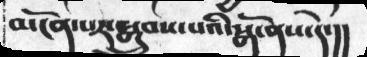མངོན་པར་སྒྲུབས་པའི་སྒོ་ནས་དེ་།།
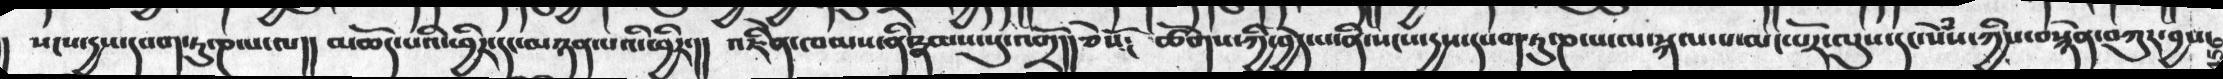།  སངས་དྱས་དཔག་ཏུ་ཎ་པ་ལ།།  མཆོད་པའི་ཕྱིར་དང་མཉན་པའི་ཕྱིར་།།  འཇིེན་ཁམས་ནི་རྣམས་སུ་འགྲོ།། ཅེསོ༴  ཚོགས་ཀྱི་བྱེད་པ་ནི་སངས་དྱས་དཔག་ཏུ་ཎ་པ་ལ་སྐལ་པ་མང་པོར་ལུས་དང་སེཾས་ཀྱིས་བསྙེན་བཀུར་བྱས་
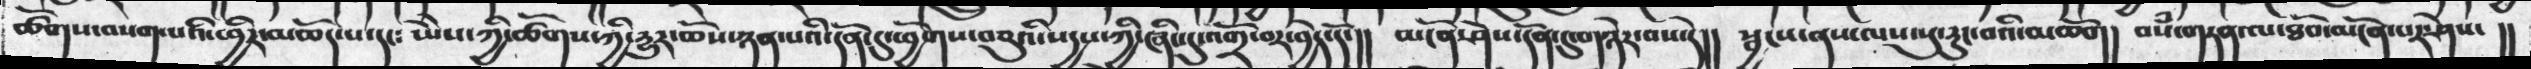ཚོགས་བསག་པའི་ཕྱིར་མཆོད་པ་དང༴ ཡཻས་ཀྱི་ཚོགས་ཀྱི་དྱུར་ཆོས་ཉན་པའི་དོན་དུ་ཕྱོགས་བཅུའི་སདྱས་ཀྱི་ཞིང་དུ་འགྲོ་བར་བྱེད་དོ་།།  མངོན་ཤེས་དོན་དུ་གཉེར་བས་དེ།།  སྦྱངས་ནས་ལས་སུ་རུང་བའི་མཆོག།  བསཾ་གཏན་ལ་ཐོབ་མངོན་པར་ཤེས་  །།
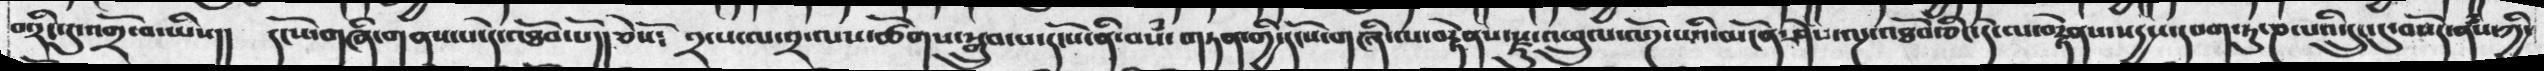བ་རིང་དུ་འགྲོ་བ་ཡིས།།   དང་པོ་གཞི་གནས་པ་དེ་འཐོབ་པོ།།ཅེསོ༴ ༢་པ་ལ་༢་ལས་ཚོགས་སྒྲུབ་པ་དངོས་པོ་ནི་བསཾ་གཏན་གྱི་གྱི་དངོས་གཞི་ལ་བརྟེནས་རྫུན་འཕྲུལ་ལོཌ་པའི་མངོན་ཤེས་ལྔ་འཐོབ་ཅིང་དེ་ལ་བརྟེནས་སདྱས་དཔག་ཏུ་ཎ་པའི་དྲུང་དུ་བསོད་ནཾས་ཀྱི་
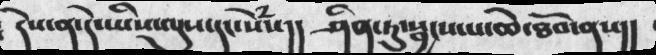དེས་ན་དེ་ཡིས་ལུས་དང་སེཾས།།  ཤིན་ཏུ་སྦྱངས་པ་ཆེ་ཐོབ་ནས།།
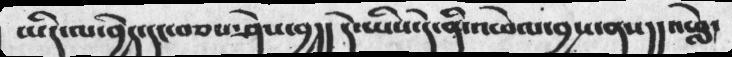ཡིད་ལ་བྱེད་དང་བཅས་ཤེས་བྱ།།  དེ་ཡིས་དེ་ནི་འཕེལ་བྱས་ནས།།  ས་བླ་
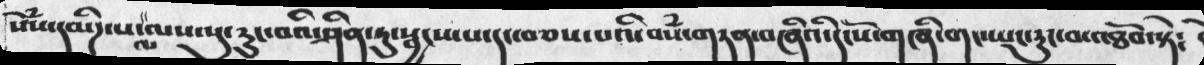སེཾས་དམིཌ་པ་ལས་སུ་རུང་བའི་ཤིན་ཏུ་སྦྱངས་པ་དང་བཅས་པའི་བསཾ་གཏན་བཞིའི་དངོས་གཞི་གང་ཡང་རུང་བ་འཐོབ་སྟེ༴
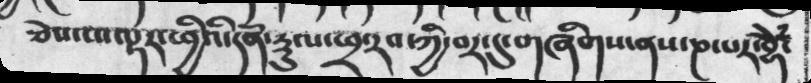ཅེས་པ་ལྟར་ཕྱིའི་དོན་རྡུལ་ཕྲ་རབ་ཀྱི་བར་དུ་གཞིགས་ནས་ཎ་པར་བྷཻཾ་
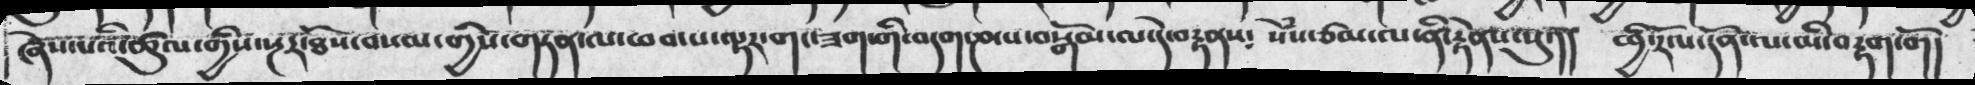ཞེས་པའི་ཚུལ་གྱིས་སྔར་ཐོས་བསམ་གྱིས་གཏན་ལ་ཕབ་པ་ལྟར་གང་ཟག་གི་བདག་ཎ་པ་བསྒོམ་ལ་དེ་བརྟནས༴  སེཾས་ཙམ་ལ་ནི་རྟེནས་སུ་།།  ཕྱི་རོལ་དོན་ལ་མི་བརྟག་གོ།
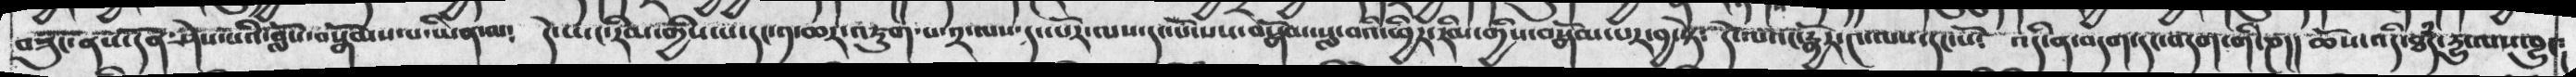བཟུང་ནས་དོན་ཤེས་པའི་བློས་བསྒོམས་པ་ཡིན་ལ༴  དེ་ཡང་རིམ་གྱིས་པ་དང་༡་ཆར་འཇུག་པ་༢་ལས་དང་པོར་ལས་དང་པོ་པས་བསྒོམ་སླ་བའི་རིམ་གྱིས་བསྒོམ་པར་བྱ་སྟེ༴  དེ་ལའང་རྣྱོར་༤་ལས་དང་པོ༴  འདི་ན་བདག་དང་བདག་གི་ཎ།།  ཆོས་འདི་ཐཾད་དྱུ་ལས་བྱུང༴
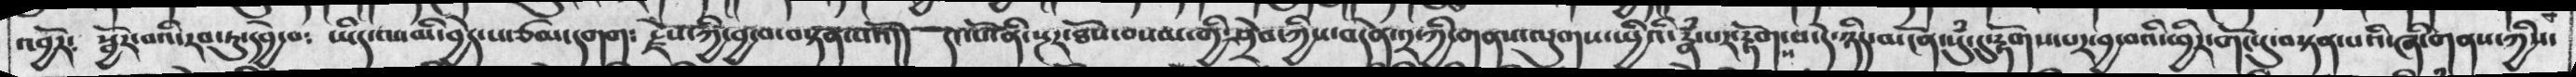འབྱོར༴  སྦྱོར་བའི་རབ་ཏུ་དབྱེ་བ༴   ཡིད་ལ་མི་བྱེད་པ་ཙམ་དགག༴  རྗེས་ཀྱི་བྱབ་བསྟན་པའོ།།  དང་པོ་ནི་སྔར་ཐོས་བསམ་གྱི་ཤྲེབ་ཀྱིས་བདེན་༢་ཀྱི་གནས་ལུགས་སྤྱིའི་རྣཾ་པར་རྟོགས་པ་དེ་ཉིད་མངོན་སུཾ་དུ་རྟོགས་པར་བྱ་བའི་ཕྱིར་གོང་དུ་བསྟན་པའི་ཞི་གནས་ཀྱིས་
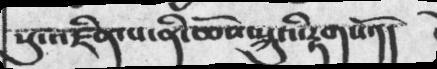སུ་འཛིན་པ་ནི་ཆོས་སྐུའི་རྟགསོ་།།
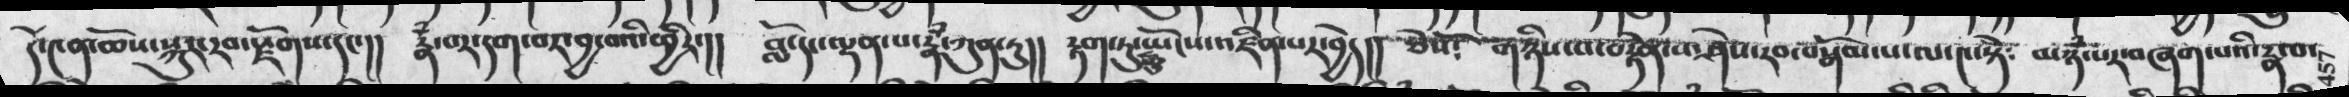དེ་༤ན་ཆོས་སྐུར་རབ་རྫོགས་དང་།།   རྣཾ་པར་དག་པར་བྱ་བའི་ཕྱིར་།།  བློ་དང་ལྡན་པ་རྣཾ་ཀུན་ཏུ།།  རྟག་ཏུ་ཡོངས་འཛིན་པར་བྱེ།།  ཅེསོ༴   གཉིས་པ་བརྟེན་པ་ཤེས་རབ་བསྒོམ་པ་ལ་༤་སྟེ༴   མཉཾ་པར་བཞག་པའི་རྣལ་
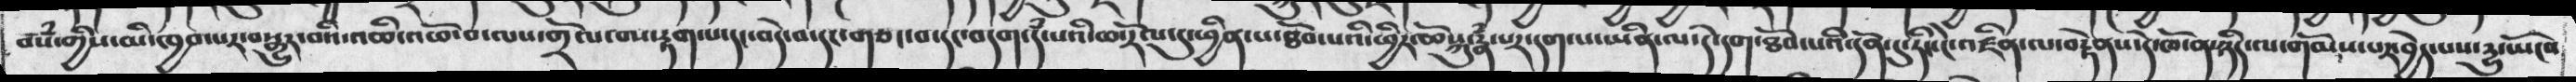བསཾ་གྱིས་མི་ཁྱབ་པར་བསྒྱུར་བའི་འཆི་འཕོ་བ་ལས་གྲོལ་བས་རྟག་པ་དང་བདེ་བ་དང་གཙང་བ་དང་བདག་དཾ་པའི་ཆ་རོལ་དུ་ཕྱིན་པ་ཐོབ་པའི་ཕྱིར་ཆོསྐུ་རྣྃ་པར་དག་པར་དག་པ་ཡིན་ལ་དེ་དག་ཐོབ་པའི་དོན་དུ་ཏིང་ངེ་འཛིན་ལ་བརྟེནས་དེ་ཁོ་ན་ཉིད་ལ་གོམས་པར་བྱེད་པས་དྱུ་ཡོངས
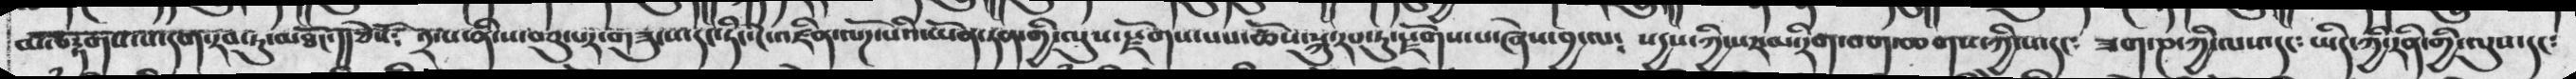མ་བརྟགས་པ་དག་རབ་ཏུ་མཐོང་།། ཅེསོ༴  ༢་པ་ནི་ས་བཅུ་པར་གཟུངས་དང་ཏིང་ངེ་འཛིན་ལཌོ་པའི་ཡོན་ཏན་གྱི་ལུས་རྫོག་པས་ཆོས་སྐུ་རབ་རུ་རྫོགས་པ་ཞེས་བྱ་ལ༴   སདྱས་ཀྱི་སར་མ་རེག་བག་ཆགས་ཀྱི་ས་དང༴ ཟག་ཎ་ཀྱི་ལས་དང༴   ཡིད་ཀྱི་རནི་གྱི་ལུས་དང༴
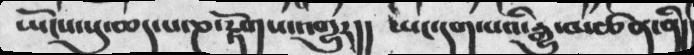ཡོངས་སུ་ཆད་པ་ཎ་རྟོགས་འགྱུར།།  ཡང་དག་པའི་རྒྱུ་མཚན་ནི།།
